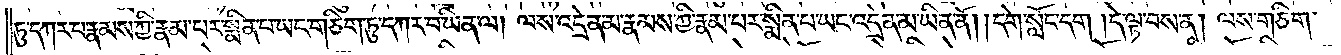ཏུ་དཀར་པ་རྣམས་ཀྱི་རྣམ་པར་སྨིན་པ་ཡང་གཅིག་ཏུ་དཀར་བ་ཡིན་ལ། ལས་འདྲེན་མ་རྣམས་ཀྱི་རྣམ་པར་སྨིན་པ་ཡང་འདྲེན་མ་ཡིན་ནོ། །དགེ་སློང་དག །དེ་ལྟ་བས་ན། ལས་གཅིག་
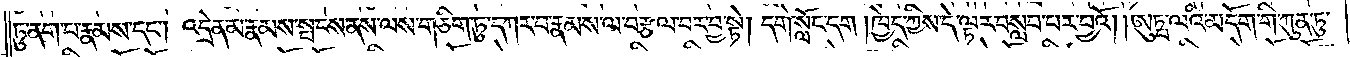ཏུ་ནག་པ་རྣམས་དང༌། འདྲེན་མ་རྣམས་སྤངས་ནས་ལས་གཅིག་ཏུ་དཀར་བ་རྣམས་ལ་བརྩལ་བར་བྱ་སྟེ། དགེ་སློང་དག །ཁྱེད་ཀྱིས་དེ་ལྟར་བསླབ་པར་བྱའོ། །ཨུཏྤ་ལའི་མདོག་གི་ཀུན་ཏུ་
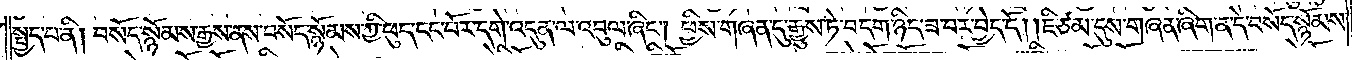སྤྱད་པ་ནི། བསོད་སྙོམས་རྒྱས་ནས་བསོད་སྙོམས་ཀྱི་ཕུད་དང་པོར་དགེ་འདུན་ལ་འབུལ་ཞིང༌། ཕྱིས་གཞན་དུ་རྒྱུས་ཏེ་བདག་ཉིད་ཟ་བར་བྱེད་དོ། །ཇི་ཙམ་དུས་གཞན་ཞིག་ན་དེ་བསོད་སྙོམས་
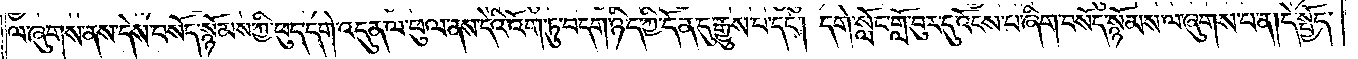ལ་ཞུགས་ནས་དེས་བསོད་སྙོམས་ཀྱི་ཕུད་དགེ་འདུན་ལ་ཕུལ་ནས་དེའི་འོག་ཏུ་བདག་ཉིད་ཀྱི་དོན་དུ་རྒྱུས་པ་དང༌། དགེ་སློང་གློ་བུར་དུ་འོངས་པ་ཞིག་བསོད་སྙོམས་ལ་ཞུགས་པ་ན། དེ་སྤྱོད་
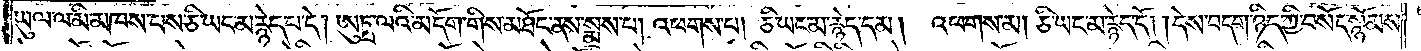ཡུལ་ལ་མི་མཁས་པས་ཅི་ཡང་མ་རྙེད་པ་དེ། ཨུཏྤ་ལའི་མདོག་གིས་མཐོང་ནས་སྨྲས་པ། འཕགས་པ། ཅི་ཡང་མ་རྙེད་དམ། འཕགས་མ། ཅི་ཡང་མ་རྙེད་དོ། །དེས་བདག་ཉིད་ཀྱིས་བསོད་སྙོམས་
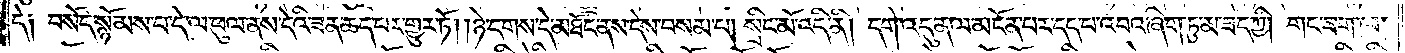དེ། བསོད་སྙོམས་པ་དེ་ལ་ཕུལ་ནས་དེའི་ཟན་ཆད་པར་གྱུར་ཏོ། །ཉེ་དགས་དེ་མཐོང་ནས་དེས་བསམ་པ། སྲིང་མོ་འདི་ནི། དགེ་འདུན་ལ་མངོན་པར་དད་པ་འབའ་ཞིག་ཏུ་མ་ཟད་ཀྱི། གང་ཟག་ལ་
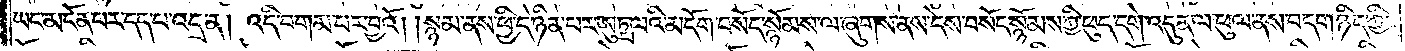ཡང་མངོན་པར་དད་པ་འདྲ་ན། འདི་བགམ་པར་བྱའོ། །སྙམ་ནས་ཕྱི་དེ་ཉིན་པར་ཨུཏྤ་ལའི་མདོག་བསོད་སྙོམས་ལ་ཞུགས་ནས་དེས་བསོད་སྙོམས་ཀྱི་ཕུད་དགེ་འདུན་ལ་ཕུལ་ནས་བདག་ཉིད་ཀྱི་
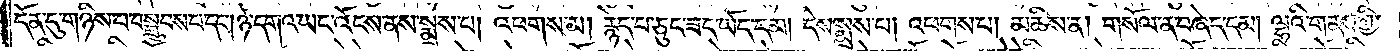དོན་དུ་གཉིས་པ་བསྒྲུབས་པ་དང༌། ཉེ་དགའ་ཡང་འོངས་ནས་སྨྲས་པ། འཕགས་མ། རྙེད་པ་ཅུང་ཟད་ཡོད་དམ། དེས་སྨྲས་པ། འཕགས་པ། མཆིས་ན། གསོལ་ན་བཞེད་དམ། ལྷའི་གནས་ཀྱི་
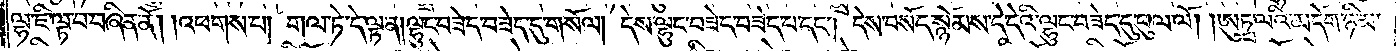ལྷ་ཇི་ལྟ་བ་བཞིན་ནོ། །འཕགས་པ། གལ་ཏེ་དེ་ལྟ་ན། ལྷུང་བཟེད་བཟེད་དུ་གསོལ། དེས་ལྷུང་བཟེད་བཟེད་པ་དང༌། དེས་བསོད་སྙོམས་དེ་དེའི་ལྷུང་བཟེད་དུ་ཕུལ་ལོ། །ཨུཏྤ་ལའི་མདོག་ཉི་མ་
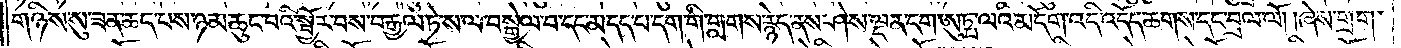གཉིས་སུ་ཟན་ཆད་པས་ཉམ་ཆུང་བའི་སྦྱོར་བས་བརྒྱལ་ཏེ་ས་ལ་བསྒྱེལ་བ་དང་མ་དད་པ་དག་གི་གླགས་རྙེད་ནས་ཤེས་ལྡན་དག་ཨུཏྤ་ལའི་མདོག་འདི་འདོད་ཆགས་དང་བྲལ་ལོ། །ཞེས་གྲག་
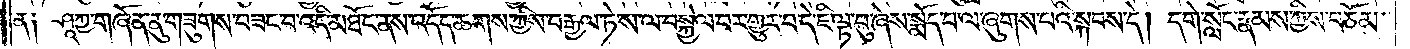ན། ཤཱཀྱ་གཞོན་ནུ་གཟུགས་བཟང་བ་འདི་མཐོང་ནས་འདོད་ཆགས་ཀྱིས་བརྒྱལ་ཏེ་ས་ལ་བསྐྱེལ་བར་གྱུར་པ་དེ་ཇི་ལྟ་བུ་ཞེས་སྨོད་པ་ལ་ཞུགས་པའི་སྐབས་དེ། དགེ་སློང་རྣམས་ཀྱིས་བཅོམ་
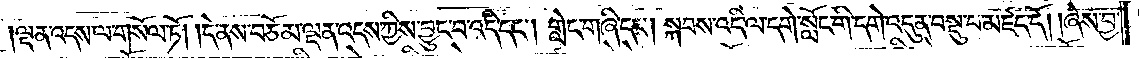ལྡན་འདས་ལ་གསོལ་ཏོ། །དེ་ནས་བཅོམ་ལྡན་འདས་ཀྱིས་བྱུང་བ་འདི་དང༌། གླེང་གཞི་དང༌། སྐབས་འདི་ལ་དགེ་སློང་དགེ་འདུན་བསྡུ་བ་མཛད་དོ། །ཞེས་བྱ་
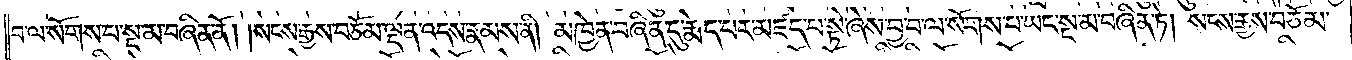བ་ལ་སོགས་པ་སྔ་མ་བཞིན་ནོ། །སངས་རྒྱས་བཅོམ་ལྡན་འདས་རྣམས་ནི། མཁྱེན་བཞིན་དུ་རྨེད་པར་མཛད་པ་སྟེ་ཞེས་བྱ་བ་ལ་སོགས་པ་ཡང་སྔ་མ་བཞིན་ཏེ། སངས་རྒྱས་བཅོམ་
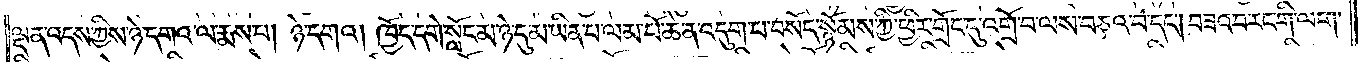ལྡན་འདས་ཀྱིས་ཉེ་དགའ་ལ་རྨས་པ། ཉེ་དགའ། ཁྱོད་དགེ་སློང་མ་ཉེ་དུ་མ་ཡིན་པ་ལམ་པོ་ཆེ་ན་འདུག་པ་བསོད་སྙོམས་ཀྱི་ཕྱིར་གྲོང་དུ་འགྲོ་བ་ལས་བཅའ་བ་དང༌། བཟའ་བ་རང་གི་ལག་
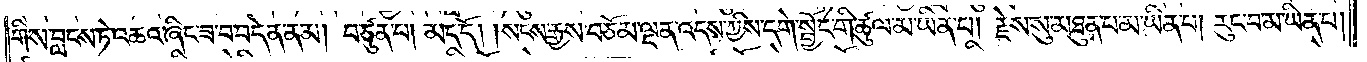གིས་བླངས་ཏེ་འཆའ་ཞིང་ཟ་བ་བདེན་ནམ། བཙུན་པ། མད་དོ། །སངས་རྒྱས་བཅོམ་ལྡན་འདས་ཀྱིས་དགེ་སྦྱོང་གི་ཚུལ་མ་ཡིན་པ། རྗེས་སུ་མཐུན་པ་མ་ཡིན་པ། རུང་བ་མ་ཡིན་པ།
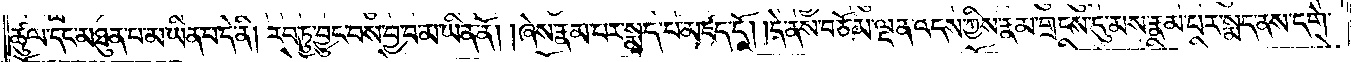ཚུལ་དང་མཐུན་པ་མ་ཡིན་པ་དེ་ནི། རབ་ཏུ་བྱུང་བས་བྱ་བ་མ་ཡིན་ནོ། །ཞེས་རྣམ་པར་སྨད་པ་མཛད་དོ། །དེ་ནས་བཅོམ་ལྡན་འདས་ཀྱིས་རྣམ་གྲངས་དུ་མས་རྣམ་པར་སྨད་ནས་དགེ་
